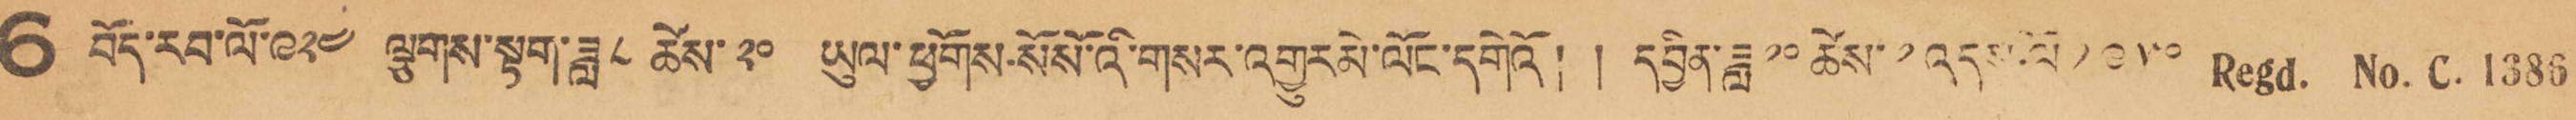6 བོད་རབ་ལོ་ ༩༢༤ ལྕགས་སྟག་ཟླ་ ༨ ཚེས་ ༢༠ ཡུལ་ཕྱོགས་སོ་སོ་འི་གནར་འགྱུར་མེ་ལོང་དགེའོ། །དབྱིན་ཟླ་ ༡༠ ཚེས་༡ འདས་ལོ་ ༡༩༥༠ Regd. No. C. 1386
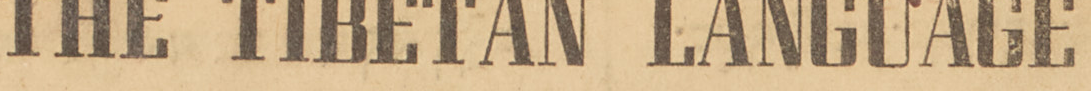THE TIBETAN LANGUAGE
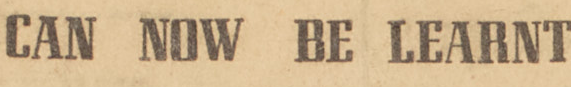CAN NOW BE LEARNT
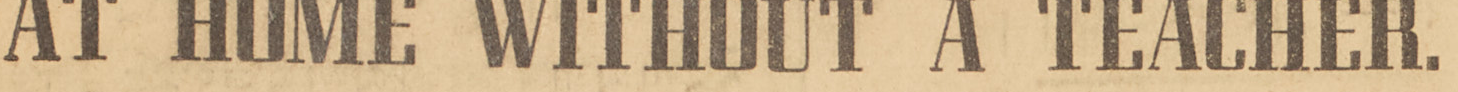AT HOME WITHOUT A TEACHER.
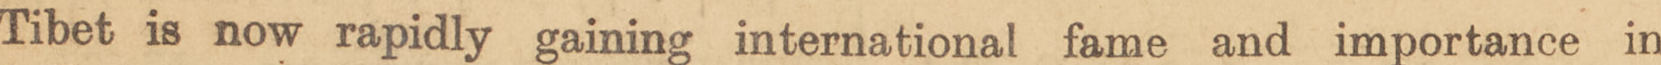Tibet is now rapidly gaining international fame and importance in
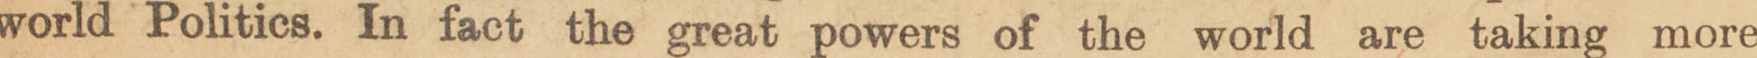world Politics. In fact the great powers of the world are taking more
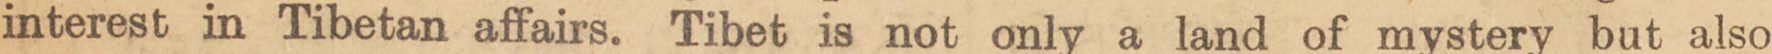interest in Tibetan affairs. Tibet is not only a land of mystery but also
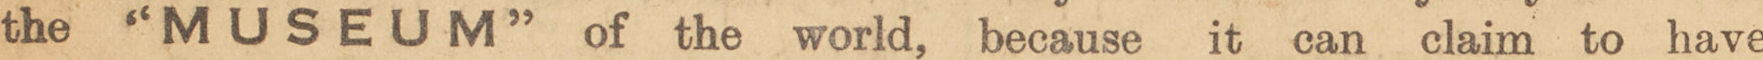the ''MUSEUM'' of the world, because it can claim to have
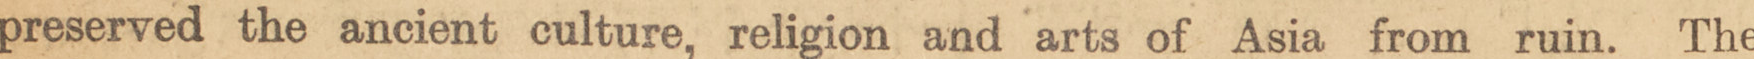preserved the ancient culture, religiou and arts of Asia from ruin. The
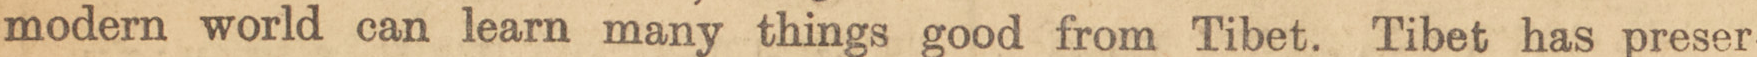modern world can learn many thingas good from Tibet. Tibet has preser-
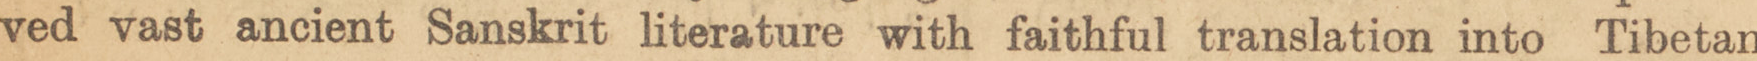ved vast ancinet Sanskrit literature with faithful translation into Tibetan
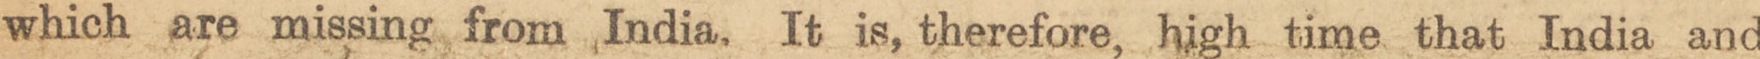which are missing from India. It is, therefore, high time that Indian and
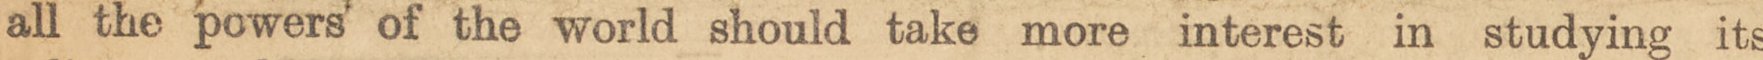all the power of the world should take more interest in studying its
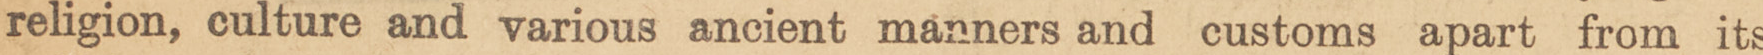religious, culture and various ancient manners and customs apart from its
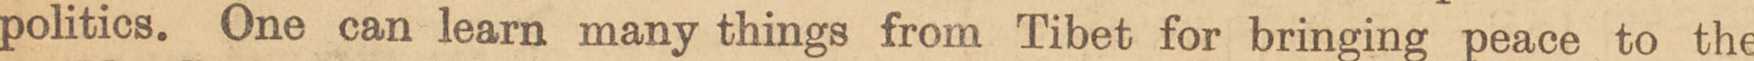politics. One can learn many things from Tibet for bringing peace to the
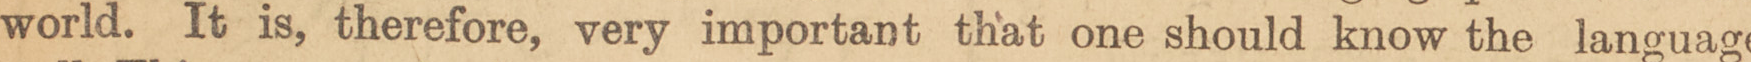world. It is, therefore, very important that one should knoe the language
